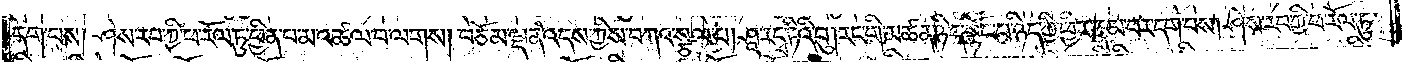དག་པས། ཤེས་རབ་ཀྱི་ཕ་རོལ་ཏུ་ཕྱིན་པ་མ་འཚལ་བ་ལགས། བཅོམ་ལྡན་འདས་ཀྱིས་བཀའ་སྩལ་པ། ཤཱ་ར་དྭ་ཏིའི་བུ། རང་གི་མཚན་ཉིད་སྟོང་པ་ཉིད་ཀྱི་ཕྱིར་རྣམ་པར་དག་པས། ཤེས་རབ་ཀྱི་ཕ་རོལ་ཏུ་
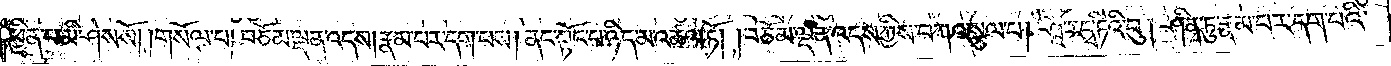ཕྱིན་པ་མི་ཤེས་སོ། །གསོལ་པ། བཅོམ་ལྡན་འདས། རྣམ་པར་དག་པས། ནང་སྟོང་པ་ཉིད་མ་འཚལ་ཏོ། །བཅོམ་ལྡན་འདས་ཀྱིས་བཀའ་སྩལ་པ། ཤཱ་ར་དྭ་ཏིའི་བུ། ཤིན་ཏུ་རྣམ་པར་དག་པའི་
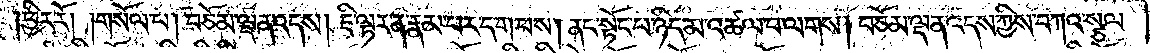ཕྱིར་རོ། །གསོལ་པ། བཅོམ་ལྡན་འདས། ཇི་ལྟར་ན་རྣམ་པར་དག་པས། ནང་སྟོང་པ་ཉིད་མ་འཚལ་བ་ལགས། བཅོམ་ལྡན་འདས་ཀྱིས་བཀའ་སྩལ་
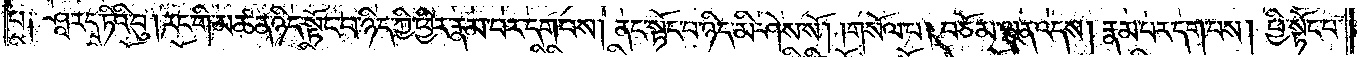པ༑ ཤཱ་ར་དྭ་ཏིའི་བུ། རང་གི་མཚན་ཉིད་སྟོང་པ་ཉིད་ཀྱི་ཕྱིར་རྣམ་པར་དག་པས། ནང་སྟོང་པ་ཉིད་མི་ཤེས་སོ། །གསོལ་པ། བཅོམ་ལྡན་འདས། རྣམ་པར་དག་པས། ཕྱི་སྟོང་པ་
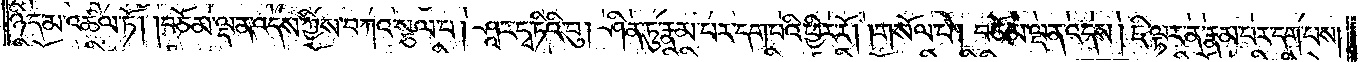ཉིད་མ་འཚལ་ཏོ། །བཅོམ་ལྡན་འདས་ཀྱིས་བཀའ་སྩལ་པ། ཤཱ་ར་དྭ་ཏིའི་བུ། ཤིན་ཏུ་རྣམ་པར་དག་པའི་ཕྱིར་རོ། །གསོལ་པ། བཅོམ་ལྡན་འདས། ཇི་ལྟར་ན་རྣམ་པར་དག་པས།
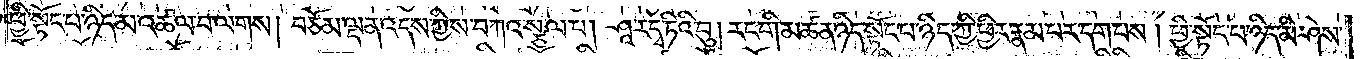ཕྱི་སྟོང་པ་ཉིད་མ་འཚལ་པ་ལགས། བཅོམ་ལྡན་འདས་ཀྱིས་བཀའ་སྩལ་པ། ཤཱ་ར་དྭ་ཏིའི་བུ། རང་གི་མཚན་ཉིད་སྟོང་པ་ཉིད་ཀྱི་ཕྱིར་རྣམ་པར་དག་པས། ཕྱི་སྟོང་པ་ཉིད་མི་ཤེས་
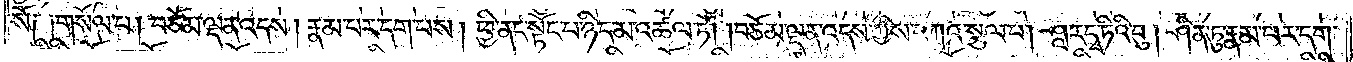སོ༑ ༑གསོལ་པ། བཅོམ་ལྡན་འདས། རྣམ་པར་དག་པས། ཕྱི་ནང་སྟོང་པ་ཉིད་མ་འཚལ་ཏོ། །བཅོམ་ལྡན་འདས་ཀྱིས་བཀའ་སྩལ་པ། ཤཱ་ར་དྭ་ཏིའི་བུ། ཤིན་ཏུ་རྣམ་པར་དག་
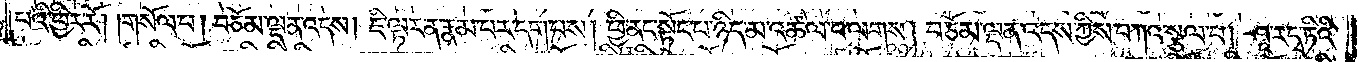པའི་ཕྱིར་རོ། །གསོལ་པ། བཅོམ་ལྡན་འདས། ཇི་ལྟར་ན་རྣམ་པར་དག་པས། ཕྱི་ནང་སྟོང་པ་ཉིད་མ་འཚལ་བ་ལགས། བཅོམ་ལྡན་འདས་ཀྱིས་བཀའ་སྩལ་པ། ཤཱ་ར་དྭ་ཏིའི་
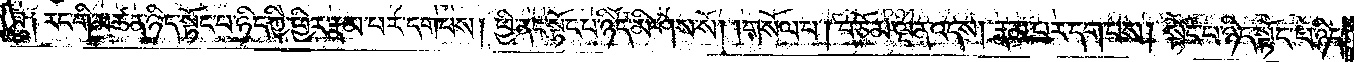བུ༑ རང་གི་མཚན་ཉིད་སྟོང་པ་ཉིད་ཀྱི་ཕྱིར་རྣམ་པར་དག་པས། ཕྱི་ནང་སྟོང་པ་ཉིད་མི་ཤེས་སོ། །གསོལ་པ། བཅོམ་ལྡན་འདས། རྣམ་པར་དག་པས། སྟོང་པ་ཉིད་སྟོང་པ་ཉིད་
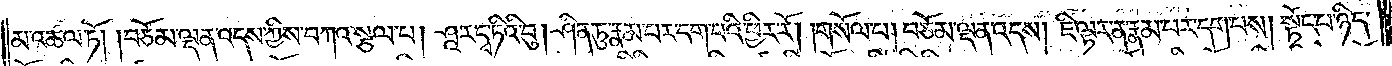མ་འཚལ་ཏོ། །བཅོམ་ལྡན་འདས་ཀྱིས་བཀའ་སྩལ་པ། ཤཱ་ར་དྭ་ཏིའི་བུ། ཤིན་ཏུ་རྣམ་པར་དག་པའི་ཕྱིར་རོ། །གསོལ་པ། བཅོམ་ལྡན་འདས། ཇི་ལྟར་ན་རྣམ་པར་དག་པས། སྟོང་པ་ཉིད་
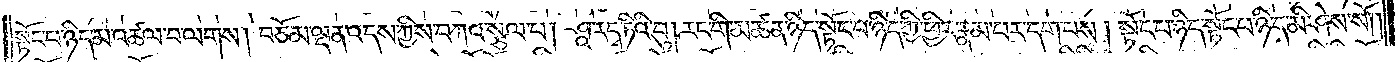སྟོང་པ་ཉིད་མ་འཚལ་པ་ལགས། བཅོམ་ལྡན་འདས་ཀྱིས་བཀའ་སྩལ་པ། ཤཱ་ར་དྭ་ཏིའི་བུ། རང་གི་མཚན་ཉིད་སྟོང་པ་ཉིད་ཀྱི་ཕྱིར་རྣམ་པར་དག་པས། སྟོང་པ་ཉིད་སྟོང་པ་ཉིད་མི་ཤེས་སོ། །
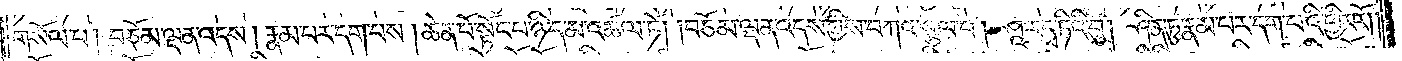གསོལ་པ། བཅོམ་ལྡན་འདས། རྣམ་པར་དག་པས། ཆེན་པོ་སྟོང་པ་ཉིད་མ་འཚལ་ཏོ། །བཅོམ་ལྡན་འདས་ཀྱིས་བཀའ་སྩལ་པ། ཤཱ་ར་དྭ་ཏིའི་བུ། ཤིན་ཏུ་རྣམ་པར་དག་པའི་ཕྱིར་རོ། །
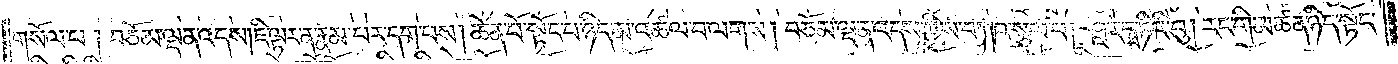གསོལ་པ། བཅོམ་ལྡན་འདས། ཇི་ལྟར་ན་རྣམ་པར་དག་པས། ཆེན་པོ་སྟོང་པ་ཉིད་མ་འཚལ་བ་ལགས། བཅོམ་ལྡན་འདས་ཀྱིས་བཀའ་སྩལ་པ། ཤཱ་ར་དྭ་ཏིའི་བུ། རང་གི་མཚན་ཉིད་སྟོང་
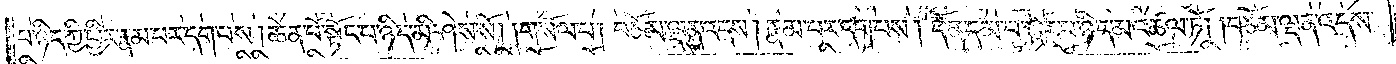པ་ཉིད་ཀྱི་ཕྱིར་རྣམ་པར་དག་པས། ཆེན་པོ་སྟོང་པ་ཉིད་མི་ཤེས་སོ། །གསོལ་པ། བཅོམ་ལྡན་འདས། རྣམ་པར་དག་པས། དོན་དམ་པ་སྟོང་པ་ཉིད་མ་འཚལ་ཏོ། །བཅོམ་ལྡན་འདས་
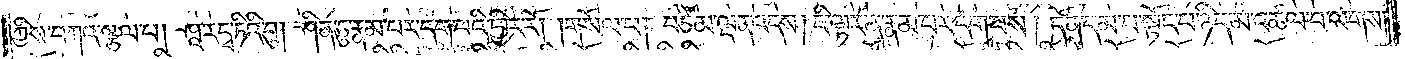ཀྱིས་བཀའ་སྩལ་པ། ཤཱ་ར་དྭ་ཏིའི་བུ། ཤིན་ཏུ་རྣམ་པར་དག་པའི་ཕྱིར་རོ། །གསོལ་པ། བཅོམ་ལྡན་འདས། ཇི་ལྟར་ན་རྣམ་པར་དག་པས། དོན་དམ་པ་སྟོང་པ་ཉིད་མ་འཚལ་བ་ལགས།
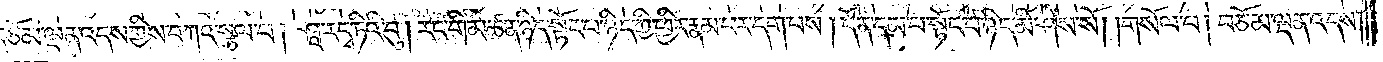བཅོམ་ལྡན་འདས་ཀྱིས་བཀའ་སྩལ་པ། ཤཱ་ར་དྭ་ཏིའི་བུ། རང་གི་མཚན་ཉིད་སྟོང་པ་ཉིད་ཀྱི་ཕྱིར་རྣམ་པར་དག་པས། དོན་དམ་པ་སྟོང་པ་ཉིད་མི་ཤེས་སོ། །གསོལ་པ། བཅོམ་ལྡན་འདས།
